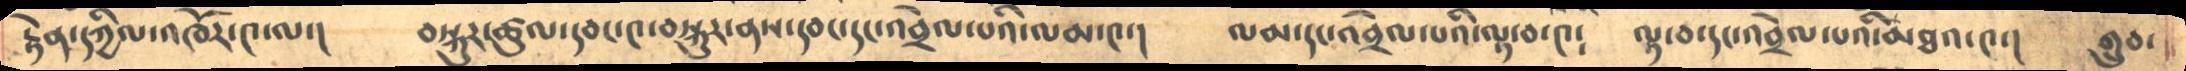རྟེན་དཀྱིལ་འཁོར་༤་ལ་།      བསྐུར་ཚུལ་དབང་༤་བསྐུར་ནས་དབང་དང་འབྲེལ་པའི་ལམ་༤་།     ལམ་དང་འབྲེལ་པའི་ལྟ་བ་༤༴    ལྟ་བ་དང་འབྲེལ་པའི་མཐའ་༤་།  གྲུབ་
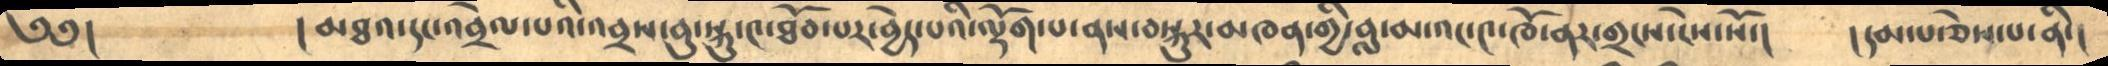༄༅།         ། མཐའ་དང་འབྲེལ་པའི་འབྲས་བུ་སྐུ་༤་ཐོབ་པར་བྱེད་པའི་ལྡོག་པ་ནས་བསྐུར་མཁན་གྱི་བླ་མ་འང་༤་ཁོ་ནར་གྲངས་ངེས་སོ་།  ། དམ་པ་ཅེས་པ་ནི་།
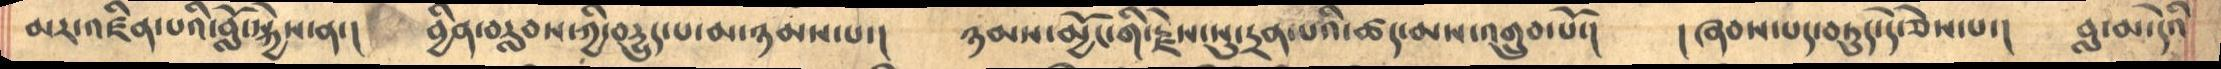མར་འཛིན་པའི་བློ་སྐྱེས་ན་།       བྱིན་བརླབས་ཀྱི་བདྱུད་པ་མ་ཉམས་པ་།     ཉམས་མྱོང་གི་རྗེས་སུ་དྲན་པའི་ཚད་མས་འགྲུབ་པོ་།   ། ཞབས་པད་བཏུད་དེ་ཅེས་པ་།   བླ་མ་དེའི
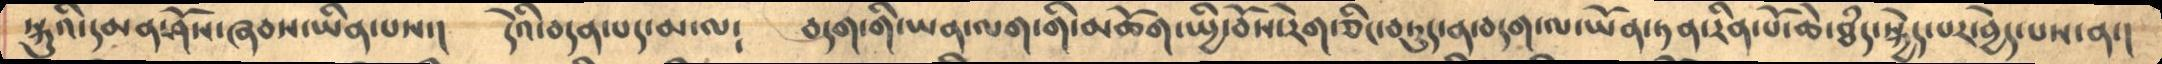སྐུའི་དམན་ཤོས་ཞབས་ཡིན་པས་།    དེའི་བདན་པད་མ་ལ༴    བདག་གི་ཡན་ལག་གི་མཆོག་སྤྱི་བོས་རེག་ཅིང་བཏུད་ན་བདག་ལ་ཡོན་ཏན་རིན་པོ་ཆེ་ཐཾད་སྐྱེད་པར་བྱེད་པས་ན་།
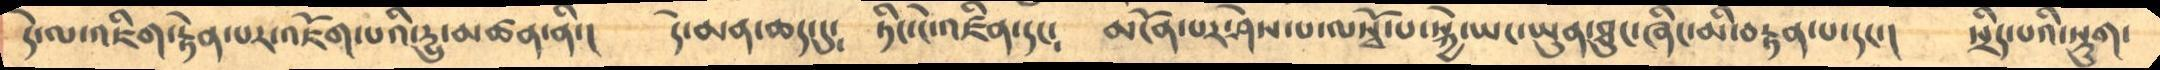དེ་ལ་འཇིག་རྟེན་པར་འཇོག་པའི་དྱུ་མཚན་ནི་།     དེ་མན་ཆད་དུ༴     ཏིང་ངེ་འཛིན་དང༴    མངོན་པར་ཤེས་པ་ལསྭོ་པ་སྐྱེ་ཡང་ཡུན་ཐུང་ཞིང་མི་བརྟན་པ་དང་།   སྲིད་པའི་སྡུག་
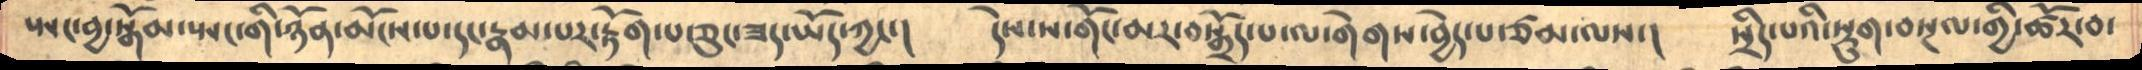སྤང་བྱ་སྒོམ་སྤང་གི་ཉོན་མོངས་པ་དང་རྣམ་པར་རྟོག་པ་ཅུང་ཟད་ཡོད་ཀྱང་།    དེས་ས་གོང་མར་བསྒྲོད་པ་ལ་གེགས་བྱེད་པ་ཙམ་ལས་།   སྲིད་པའི་སྡུག་བསྔལ་གྱི་ཚོར་བ་
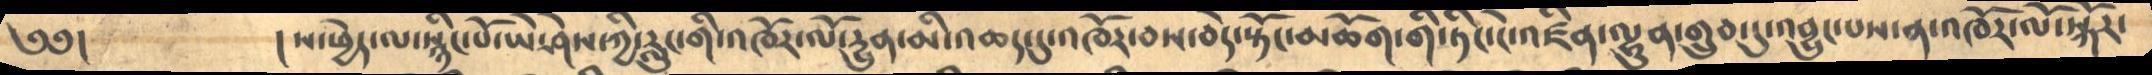༄༅།       ། ས་ཕྱེད་ལ་སྙིང་པོ་ཡཻས་ཀྱི་རླུང་གི་འཁོར་ལོ་དྱུན་མི་འཆད་དུ་འཁོར་བས་བདེ་སྟོང་མཆོག་གི་ཏིང་ངེ་འཛིན་ལྷུན་གྲུབ་དུ་འབྱུང་པས་ན་འཁོར་ལོ་སྐོར་
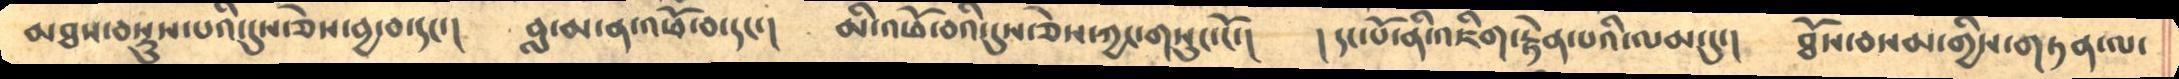མཐའ་བསྡུས་པའི་དུས་ཅེས་བྱ་བ་དང་།  བླ་མ་ན་འཕོ་བ་དང་།  མི་འཕོ་བའི་དུས་ཅེས་ཀྱང་གསུང་ངོ་།   །དང་པོ་ནི་འཇིག་རྟེན་པའི་ལམ་དུ། ཐོས་བསམ་གྱིས་གཏན་ལ་
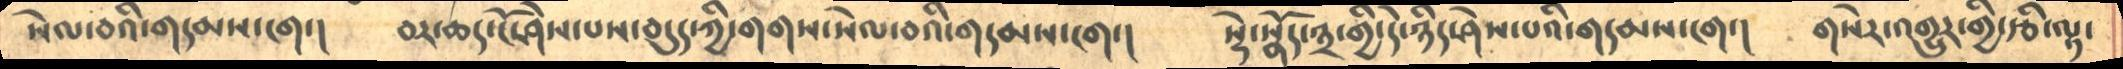སེལ་བའི་གདམས་ངག་།  བར་ཆད་ངོ་ཤེས་པས་བདུད་ཀྱི་གགས་སེལ་བའི་གདམས་ངག་། སྡེ་སྣོད་༣་གྱི་དེ་ཉིད་ཤེས་པའི་གདམས་ངག་།  གསེར་འགྱུར་གྱི་རྩི་ལྟ་
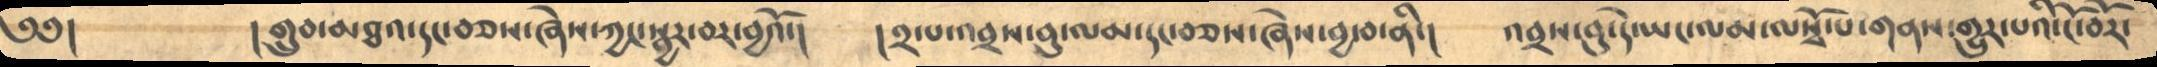༄༅།  །གྲུབ་མཐའ་དང་བཅས་ཞེས་ཀྱང་སྦྱར་བར་བྱའོ་། །༢་པ་འབྲས་བུ་ལམ་དང་བཅས་ཞེས་བྱ་བ་ནི་། འབྲས་བུ་དེ་ཡང་ལམ་ལསྭོ་པ་གནས་གྱུར་པའི་ངོ་བོར་
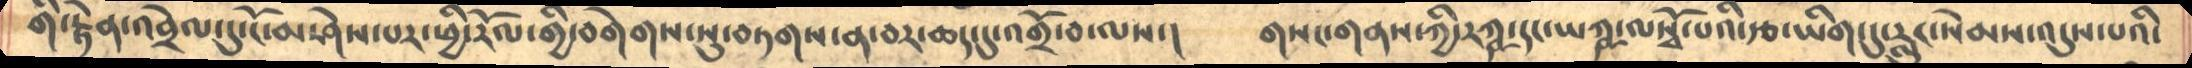གི་རྟེན་འབྲེལ་དུ་ངོ་ཤེས་པར་ཕྱི་རོལ་གྱི་བགེགས་སུ་བཏགས་ན་བར་ཆད་དུ་འགྲོ་བ་ལས་།      གསང་གནས་ཀྱི་རཀྵ་དང་ཡཀྵ་ལསྭོ་པའི་རྩ་ཡིག་དུ་རླུང་སེམས་འདུས་པའི་
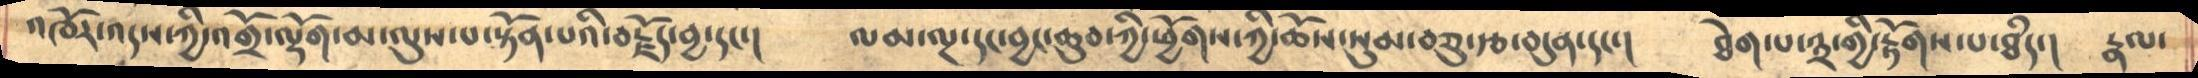འཁོར་འདས་ཀྱི་འགྲོ་ལྡོག་མ་ལུས་པ་སྟོན་པའི་བརྗོད་བྱ་དང་།     ལམ་ལྔ་དང་བྱང་ཆུབ་ཀྱི་ཕྱོགས་ཀྱི་ཆོས་སུམ་བཅུ་རྩ་བདུན་དང་།    ཐེག་པ་༣་གྱི་རྟོགས་པ་ཐཾད་།   རྣལ་
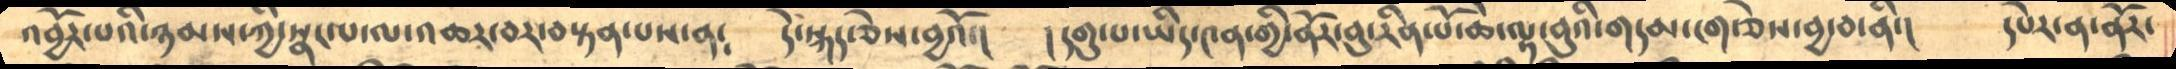འབྱོར་པའི་ཉམས་ཀྱི་སྣང་པ་ལ་འཆར་བར་བསྟན་པས་ན༴   དེ་སྐད་ཅེས་བྱའོ་།    ། དགུ་པ་ཡིད་༤ན་གྱི་ནོར་བུ་རིན་པོ་ཆེ་ལྟ་བུའི་གདམ་ངག་ཅེས་བྱ་བ་ནི་།   དཔེར་ན་ནོར་
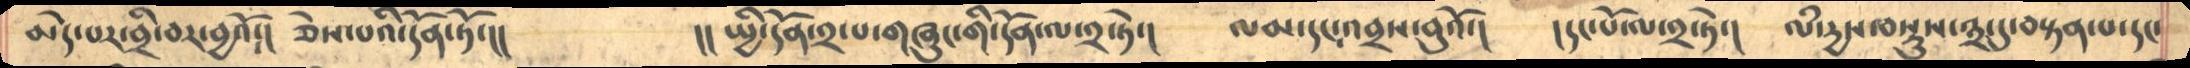མེད་པར་བྲི་བར་བྱའོ༴།    ཅེས་པའི་དོན་ཏོ་།།     །།  སྤྱི་དོན་༢་པ་གཞུང་གི་དོན་ལ་༢་ཏེ་།     ལམ་དང་འབྲས་བུའོ་།    །དང་པོ་ལ་༢་ཏེ་།  ལཾ་དྱས་བསྡུས་༣་དུ་བསྟན་པ་དང་
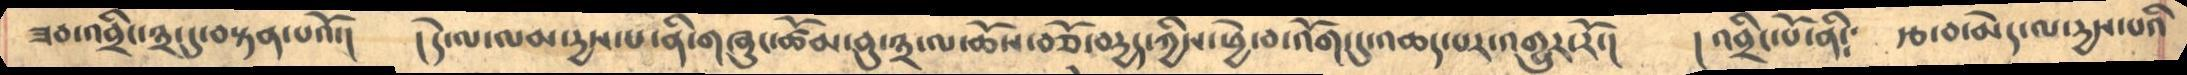ཟབ་འབྲིང་༣་དུ་བསྟན་པའོ་།     ། དེ་ལ་ལམ་དྱས་པ་ནི་གཞུང་ཚོམ་བུ་༣་ལ་ཆོས་བཅོ་བདྱད་ཀྱིས་ཕྱེ་བ་འོག་དུ་འཆད་པར་འགྱུར་རོ་།   ། འབྲིང་པོ་ནི༴    རྩ་བ་མེད་ལ་དྱས་པའི
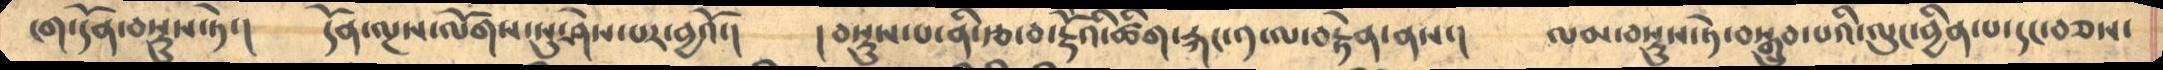ངག་དོན་བསྡུས་ཏེ་།     དོན་ལྔས་ལོགས་སུ་ཤེས་པར་བྱའོ་།    ། བསྡུས་པ་ནི་རྩ་བ་རྡོེའི་ཚིག་རྐང་༡་ལ་བརྟེན་ནས་།    ལམ་བསྡུས་ཏེ་བསྒྲུབ་པའི་ལུང་བྱིན་པ་དང་བཅས་
